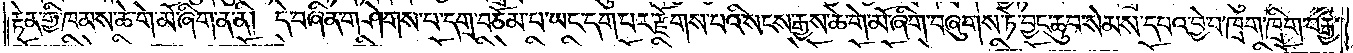རྟེན་གྱི་ཁམས་ཆེ་གེ་མོ་ཞིག་ན་ནི། དེ་བཞིན་གཤེགས་པ་དགྲ་བཅོམ་པ་ཡང་དག་པར་རྫོགས་པའི་སངས་རྒྱས་ཆེ་གེ་མོ་ཞིག་བཞུགས་ཏེ་བྱང་ཆུབ་སེམས་དཔའ་བྱེ་བ་ཁྲག་ཁྲིག་བརྒྱ་
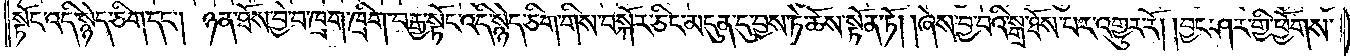སྟོང་འདི་སྙེད་ཅིག་དང༌། ཉན་ཐོས་བྱེ་བ་ཁྲག་ཁྲིག་བརྒྱ་སྟོང་འདི་སྙེད་ཅིག་གིས་བསྐོར་ཅིང་མདུན་དུ་བྱས་ཏེ་ཆོས་སྟོན་ཏོ། །ཞེས་བྱ་བའི་སྒྲ་ཐོས་པར་འགྱུར་རོ། །བྱང་ཤར་གྱི་ཕྱོགས་
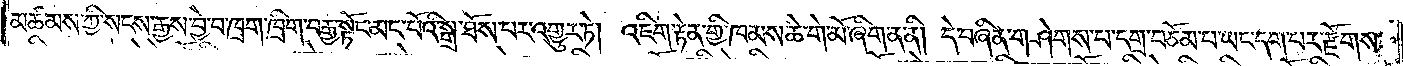མཚམས་ཀྱི་སངས་རྒྱས་བྱེ་བ་ཁྲག་ཁྲིག་བརྒྱ་སྟོང་མང་པོའི་སྒྲ་ཐོས་པར་འགྱུར་ཏེ། འཇིག་རྟེན་གྱི་ཁམས་ཆེ་གེ་མོ་ཞིག་ན་ནི། དེ་བཞིན་གཤེགས་པ་དགྲ་བཅོམ་པ་ཡང་དག་པར་རྫོགས་
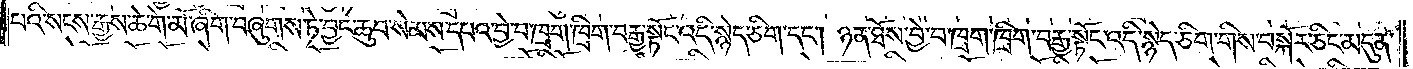པའི་སངས་རྒྱས་ཆེ་གེ་མོ་ཞིག་བཞུགས་ཏེ་བྱང་ཆུབ་སེམས་དཔའ་བྱེ་བ་ཁྲག་ཁྲིག་བརྒྱ་སྟོང་འདི་སྙེད་ཅིག་དང༌། ཉན་ཐོས་བྱེ་བ་ཁྲག་ཁྲིག་བརྒྱ་སྟོང་འདི་སྙེད་ཅིག་གིས་བསྐོར་ཅིང་མདུན་
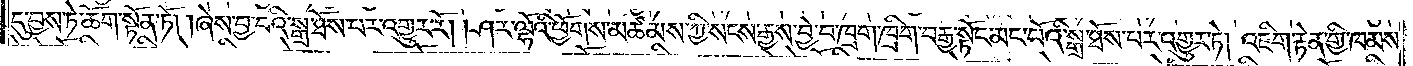དུ་བྱས་ཏེ་ཆོས་སྟོན་ཏོ། །ཞེས་བྱ་བའི་སྒྲ་ཐོས་པར་འགྱུར་རོ། །ཤར་ལྷོའི་ཕྱོགས་མཚམས་ཀྱི་སངས་རྒྱས་བྱེ་བ་ཁྲག་ཁྲིག་བརྒྱ་སྟོང་མང་པོའི་སྒྲ་ཐོས་པར་འགྱུར་ཏེ། འཇིག་རྟེན་གྱི་ཁམས་
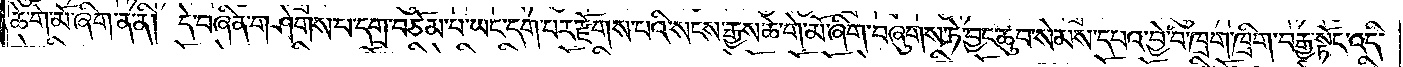ཆེ་གེ་མོ་ཞིག་ན་ནི། དེ་བཞིན་གཤེགས་པ་དགྲ་བཅོམ་པ་ཡང་དག་པར་རྫོགས་པའི་སངས་རྒྱས་ཆེ་གེ་མོ་ཞིག་བཞུགས་ཏེ་བྱང་ཆུབ་སེམས་དཔའ་བྱེ་བ་ཁྲག་ཁྲིག་བརྒྱ་སྟོང་འདི་
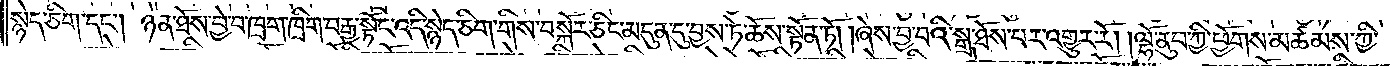སྙེད་ཅིག་དང༌། ཉན་ཐོས་བྱེ་བ་ཁྲག་ཁྲིག་བརྒྱ་སྟོང་འདི་སྙེད་ཅིག་གིས་བསྐོར་ཅིང་མདུན་དུ་བྱས་ཏེ་ཆོས་སྟོན་ཏོ། །ཞེས་བྱ་བའི་སྒྲ་ཐོས་པར་འགྱུར་རོ། །ལྷོ་ནུབ་ཀྱི་ཕྱོགས་མཚམས་ཀྱི་
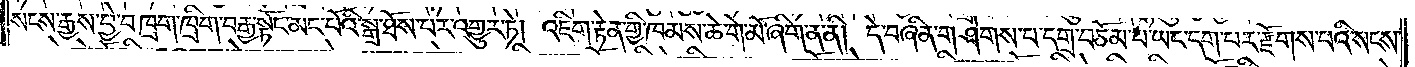སངས་རྒྱས་བྱེ་བ་ཁྲག་ཁྲིག་བརྒྱ་སྟོང་མང་པོའི་སྒྲ་ཐོས་པར་འགྱུར་ཏེ། འཇིག་རྟེན་གྱི་ཁམས་ཆེ་གེ་མོ་ཞིག་ན་ནི། དེ་བཞིན་གཤེག་པ་དགྲ་བཅོམ་པ་ཡང་དག་པར་རྫོགས་པའི་སངས་
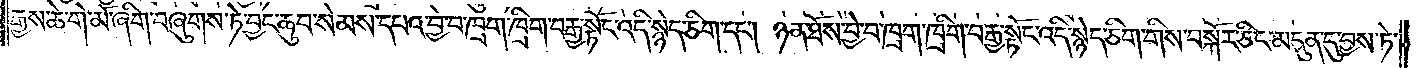རྒྱས་ཆེ་གེ་མོ་ཞིག་བཞུགས་ཏེ་བྱང་ཆུབ་སེམས་དཔའ་བྱེ་བ་ཁྲག་ཁྲིག་བརྒྱ་སྟོང་འདི་སྙེད་ཅིག་དང༌། ཉན་ཐོས་བྱེ་བ་ཁྲག་ཁྲིག་བརྒྱ་སྟོང་འདི་སྙེད་ཅིག་གིས་བསྐོར་ཅིང་མདུན་དུ་བྱས་ཏེ་
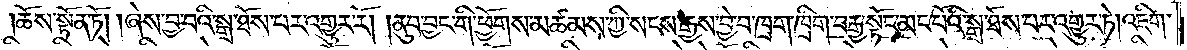ཆོས་སྟོན་ཏོ། །ཞེས་བྱ་བའི་སྒྲ་ཐོས་པར་འགྱུར་རོ། །ནུབ་བྱང་གི་ཕྱོགས་མཚམས་ཀྱི་སངས་རྒྱས་བྱེ་བ་ཁྲག་ཁྲིག་བརྒྱ་སྟོང་མང་པོའི་སྒྲ་ཐོས་པར་འགྱུར་ཏེ། འཇིག་
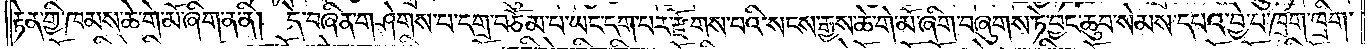རྟེན་གྱི་ཁམས་ཆེ་གེ་མོ་ཞིག་ན་ནི། དེ་བཞིན་གཤེགས་པ་དགྲ་བཅོམ་པ་ཡང་དག་པར་རྫོགས་པའི་སངས་རྒྱས་ཆེ་གེ་མོ་ཞིག་བཞུགས་ཏེ་བྱང་ཆུབ་སེམས་དཔའ་བྱེ་བ་ཁྲག་ཁྲིག་
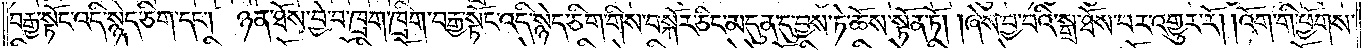བརྒྱ་སྟོང་འདི་སྙེད་ཅིག་དང༌། ཉན་ཐོས་བྱེ་བ་ཁྲག་ཁྲིག་བརྒྱ་སྟོང་འདི་སྙེད་ཅིག་གིས་བསྐོར་ཅིང་མདུན་དུ་བྱས་ཏེ་ཆོས་སྟོན་ཏོ། །ཞེས་བྱ་བའི་སྒྲ་ཐོས་པར་འགྱུར་རོ། །འོག་གི་ཕྱོགས་
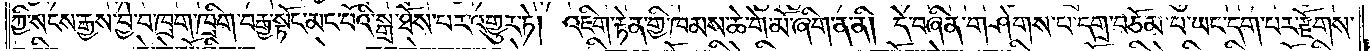ཀྱི་སངས་རྒྱས་བྱེ་བ་ཁྲག་ཁྲིག་བརྒྱ་སྟོང་མང་པོའི་སྒྲ་ཐོས་པར་འགྱུར་ཏེ། འཇིག་རྟེན་གྱི་ཁམས་ཆེ་གེ་མོ་ཞིག་ན་ནི། དེ་བཞིན་གཤེག་པ་དགྲ་བཅོམ་པ་ཡང་དག་པར་རྫོགས་
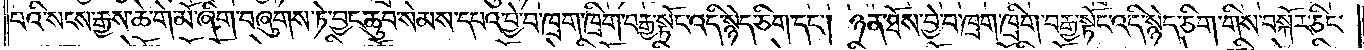པའི་སངས་རྒྱས་ཆེ་གེ་མོ་ཞིག་བཞུགས་ཏེ་བྱང་ཆུབ་སེམས་དཔའ་བྱེ་བ་ཁྲག་ཁྲིག་བརྒྱ་སྟོང་འདི་སྙེད་ཅིག་དང༌། ཉན་ཐོས་བྱེ་བ་ཁྲག་ཁྲིག་བརྒྱ་སྟོང་འདི་སྙེད་ཅིག་གིས་བསྐོར་ཅིང་
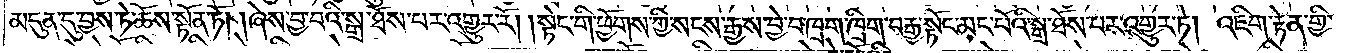མདུན་དུ་བྱས་ཏེ་ཆོས་སྟོན་ཏོ། །ཞེས་བྱ་བའི་སྒྲ་ཐོས་པར་འགྱུར་རོ། །སྟེང་གི་ཕྱོགས་ཀྱི་སངས་རྒྱས་བྱེ་བ་ཁྲག་ཁྲིག་བརྒྱ་སྟོང་མང་པོའི་སྒྲ་ཐོས་པར་འགྱུར་ཏེ། འཇིག་རྟེན་གྱི་
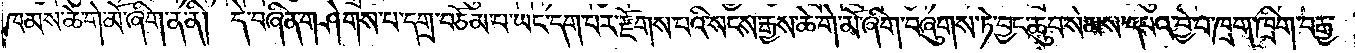ཁམས་ཆེ་གེ་མོ་ཞིག་ན་ནི། དེ་བཞིན་གཤེགས་པ་དགྲ་བཅོམ་པ་ཡང་དག་པར་རྫོགས་པའི་སངས་རྒྱས་ཆེ་གེ་མོ་ཞིག་བཞུགས་ཏེ་བྱང་ཆུབ་སེམས་དཔའ་བྱེ་བ་ཁྲག་ཁྲིག་བརྒྱ་
